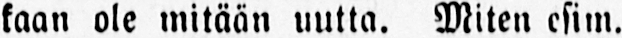kaan ole mitään uutta. Miten esim.
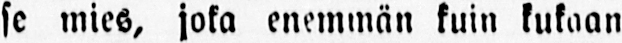se mies, joka enemmän kuin kukaan
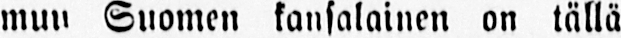muu Suomen kansalainen on tällä
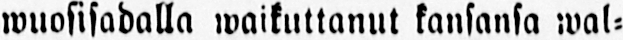wuosisadalla waikuttanut kansansa wal-
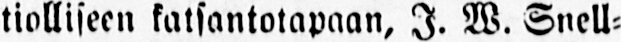tiolliseen katsantotapaan, J. W. Snell-
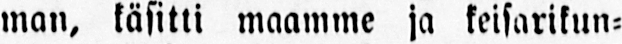man, käsitti maamme ja keisarikun-
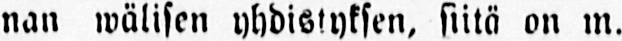nan wälisen yhdistyksen, siitä on m.
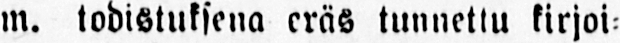m. todistuksena eräs tunnettu kirjoi-
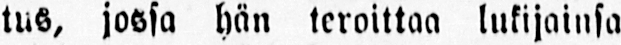tus, jossa hän teroittaa lukijainsa
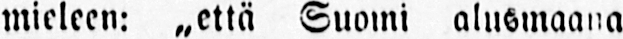mieleen: „että Suomi alusmaana
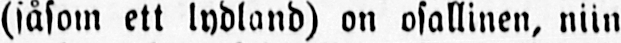(såsom ett lydland) on osallinen, niin
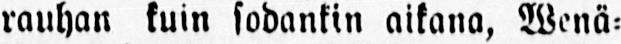rauhan kuin sodankin aikana, Wenä-
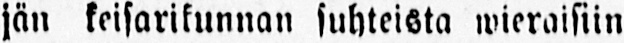jän keisarikunnan suhteista wieraisiin
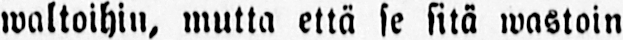waltoihin, mutta että se sitä wastoin
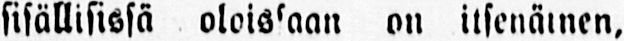sisällisissä olois'aan on itsenäinen,
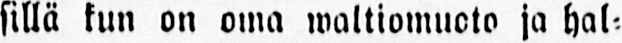sillä kun on oma waltiomuoto ja hal-
